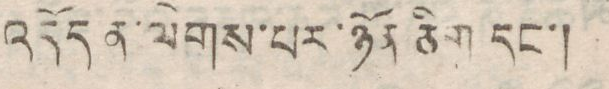འདོད ན་ལེགས་པར་ཉོན ཅིག དང་།
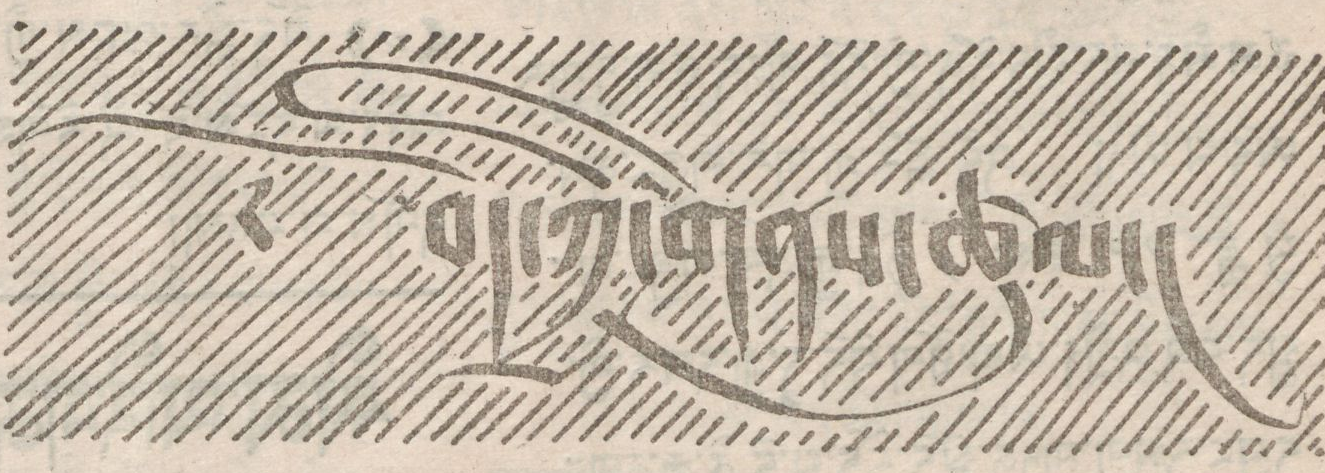༄ བོད་ཀྱི་གནས་ཚུལ།
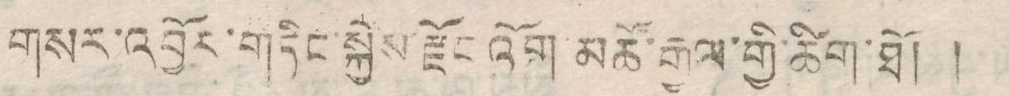གསར་འབྱོར་གཏིང་སྐྱེས་རྫོང་འོག་མཚོ་རྒྱལ་གྱི་ཚིག་ཐོ། ། (( ཉིན་སྔོན་མའི་འཕྲོས། ))
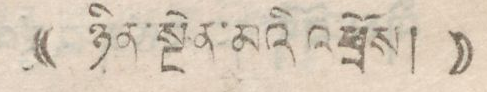གསར་འབྱོར་གཏིང་སྐྱེས་རྫོང་འོག་མཚོ་རྒྱལ་གྱི་ཚིག་ཐོ། ། (( ཉིན་སྔོན་མའི་འཕྲོས། ))
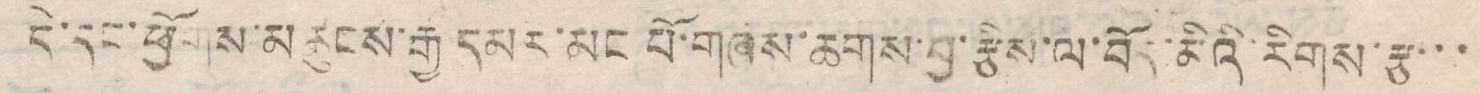དེ་དང་ཕྱོགས་མཚུངས་རྒྱ དམར་མང་པོ་གཞས་ཆགས་བྱ་རྩིས་ལ་བོད་མིའི་རིགས་རྩ་་་
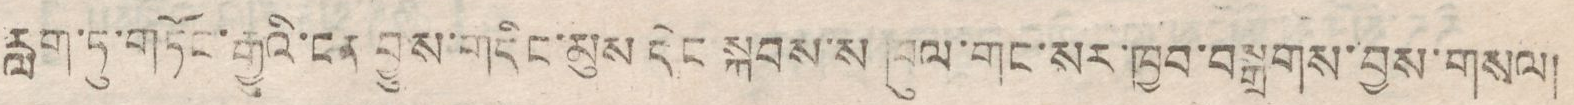རླག་ཏུ་གཏིང་རྒྱུའི་ངན་བྱུས་གདིང་མུས་དེང་སྐབས་ས་ ཁུལ་གང་སར་ཁྱབ་བསྒྲགས་བྱས་གསལ།
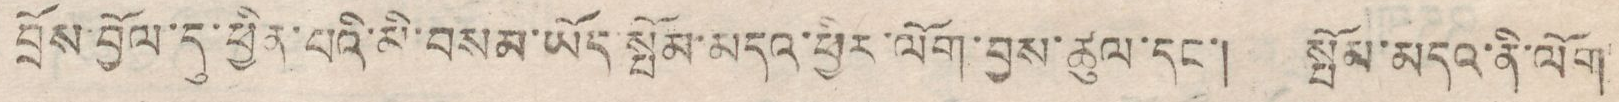བྲོས་བྱོལ་དུ་ཕྱིན་པའི་མི་བསམ་ཡོད་སྤོམ་བདའ་ཕྱིར་ལོག་བྱས་ཚུལ་དང་། སྤོམ་མདའ་ནི་ལོག
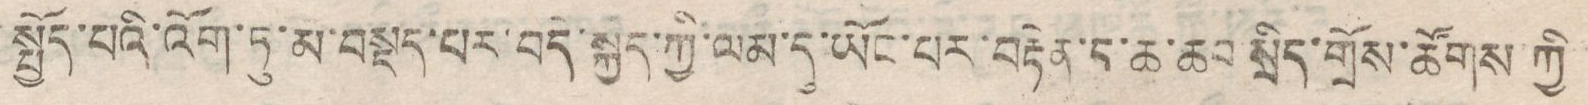སྤྱོད་པའི་འོག་ཏུ་མ་བསྡད་པར་བདེ་སྐྱིད་ཀྱི་ལམ་དུ་ཡོང་པར་བརྟེན་ད་ཆ་ཆབ་སྲིད་གྲོས་ཚོགས་ཀྱི
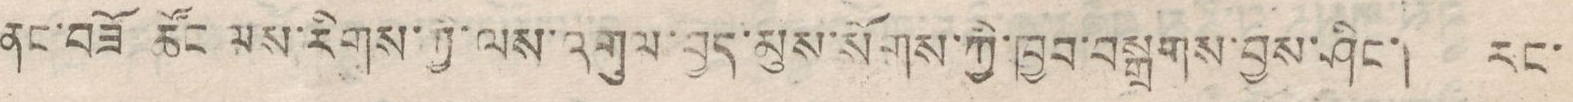ནང་བཟོ ཚོང ལས་རིགས་ཀྱི་ལས་འགུལ་བྱད་མུས་སོགས་ཀྱི་ཁྱབ་བསྒྲགས་བྱས་ཤིང་། རང་
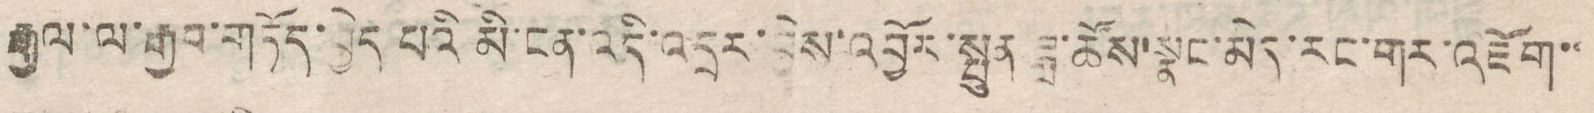རྒྱལ་ལ་རྒྱབ་གཏོད་བྱེད པའི མི་ངན་འདི་འདྲར་བྱེས་འབྱོར་སྤུན་ཟླ་ཚོས་སྣང་མེད་རང་གར་འཇོག་་
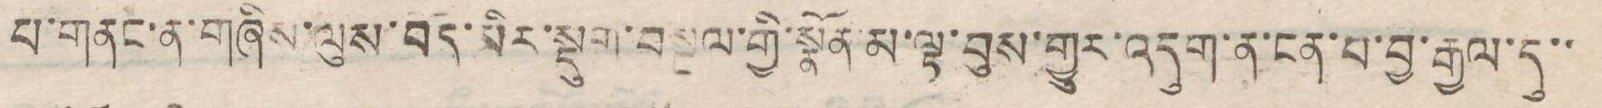པ་གནང་ན་གཞིས་ལུས་བདེ་མིར་སྡུག་བསྔལ་གྱི་སྣོན་མ་ལྟ་བུས་གྱུར་འདུག་ན་ངན་པ་བྱ་རྒྱལ་དུ་་
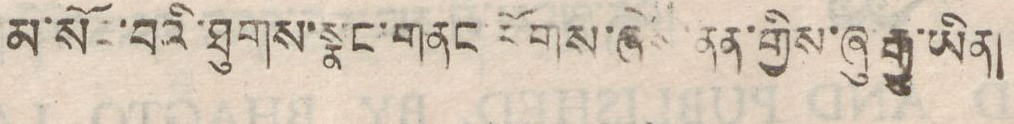མ་སོང་བའི་ཐུགས་སྣང་གནང་རོགས་ཞེས་ནན་གྱིས་ཞུ་རྒྱུ་ཡིན།
